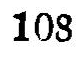108
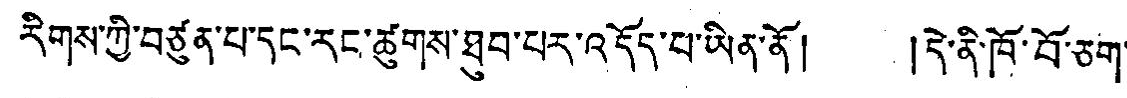རིགས་ཀྱི་བཙུན་པ་དང་རང་ཚུགས་ཐུབ་པར་འདོད་པ་ཡིན་ནོ། །དེ་ནི་ཁོ་བོ་ཅག་
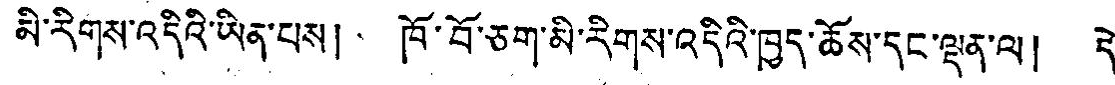མི་རིགས་འདིའི་ཡིན་པས། ཁོ་བོ་ཅག་མི་རིགས་འདིའི་ཁྱད་ཆོས་དང་ལྡན་ལ། དེ་
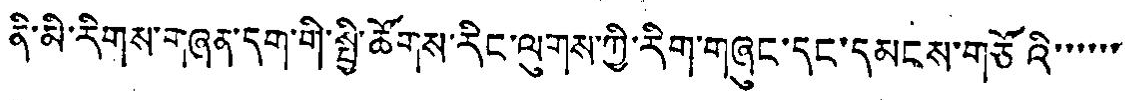ནི་མི་རིགས་གཞན་དག་གི་སྤྱི་ཚོགས་རིང་ལུགས་ཀྱི་རིག་གཞུང་དང་དམངས་གཙོའི་་་་་་་
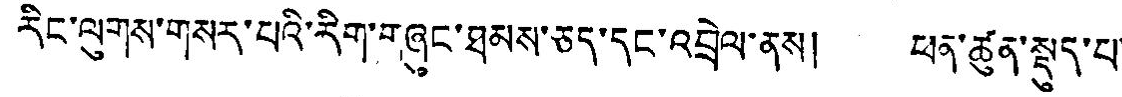རིང་ལུགས་གསར་པའི་རིག་གཞུང་ཐམས་ཅད་དང་འབྲེལ་ནས། ཕན་ཚུན་སྡུད་པ་
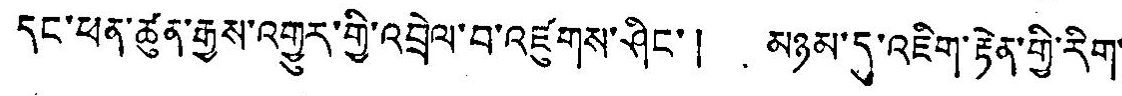དང་ཕན་ཚུན་རྒྱས་འགྱུར་གྱི་འབྲེལ་བ་འཛུགས་ཤིང་། མཉམ་དུ་འཇིག་རྟེན་གྱི་རིག་
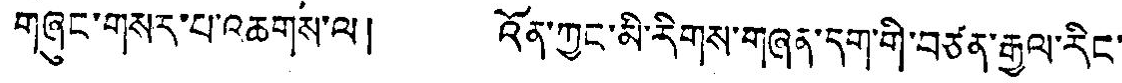གཞུང་གསར་པ་འཆགས་ལ། འོན་ཀྱང་མི་རིགས་གཞན་དག་གི་བཙན་རྒྱལ་རིང་
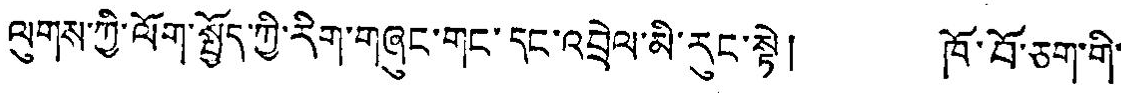ལུགས་ཀྱི་ལོག་སྤྱོད་ཀྱི་རིག་གཞུང་གང་དང་འབྲེལ་མི་རུང་སྟེ། ཁོ་བོ་ཅག་གི་
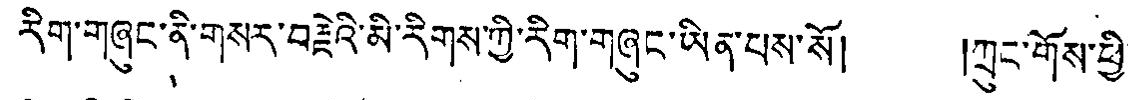རིག་གཞུང་ནི་གསར་བརྗེའི་མི་རིགས་ཀྱི་རིག་གཞུང་ཡིན་པས་སོ། །ཀྲུང་གོས་ཕྱི་
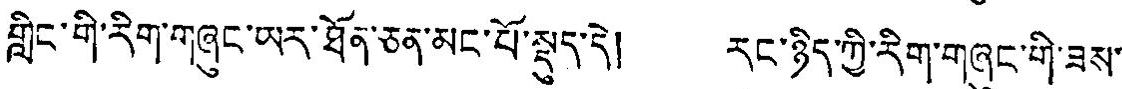གླིང་གི་རིག་གཞུང་ཡར་ཐོན་ཅན་མང་པོ་སྡུད་དེ། རང་ཉིད་ཀྱི་རིག་གཞུང་གི་ཟས་
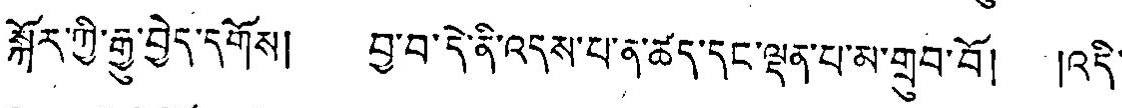སྐོར་ཀྱི་རྒྱུ་བྱེད་དགོས། བྱ་བ་དེ་ནི་འདས་པ་ན་ཚད་དང་ལྡན་པ་མ་གྲུབ་བོ། །འདི་
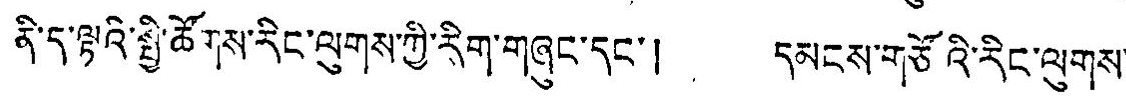ནི་ད་ལྟའི་སྤྱི་ཚོགས་རིང་ལུགས་ཀྱི་རིག་གཞུང་དང་། དམངས་གཙོའི་རིང་ལུགས་
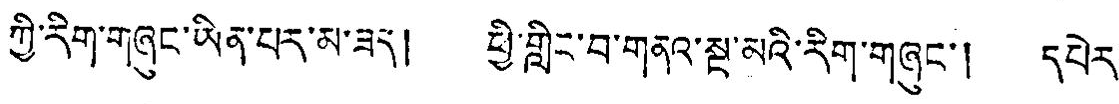ཀྱི་རིག་གཞུང་ཡིན་པར་མ་ཟད། ཕྱི་གླིང་བ་གནའ་སྔ་མའི་རིག་གཞུང་། དཔེར་
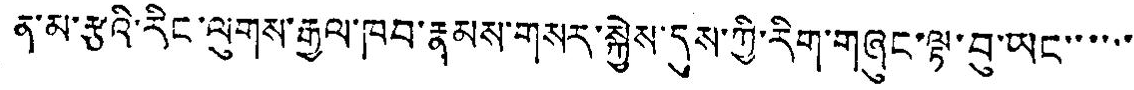ན་མ་རྩའི་རིང་ལུགས་རྒྱལ་ཁབ་རྣམས་གསར་སྐྱེས་དུས་ཀྱི་རིག་གཞུང་ལྟ་བུ་ཡང་་་་་་
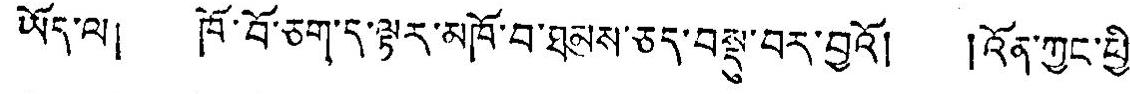ཡོད་ལ། ཁོ་བོ་ཅག་ད་ལྟར་མཁོ་བ་ཐམས་ཅད་བསྡུ་བར་བྱའོ། །འོན་ཀྱང་ཕྱི་
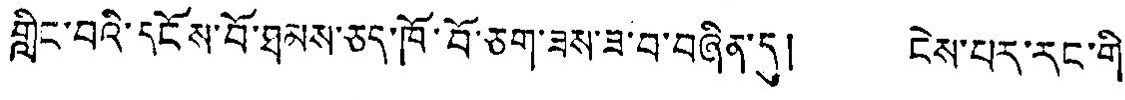གླིང་བའི་དངོས་བོ་ཐམས་ཅད་ཁོ་བོ་ཅག་ཟས་ཟ་བ་བཞིན་དུ། ངེས་པར་རང་གི་
